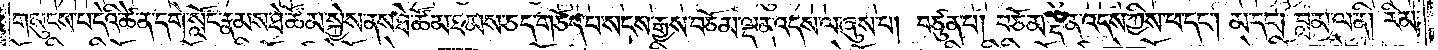གསུངས་པ་དེའི་ཚེ་ན་དགེ་སློང་རྣམས་ཐེ་ཚོམ་སྐྱེས་ནས་ཐེ་ཚོམ་ཐམས་ཅད་གཅོད་པ་སངས་རྒྱས་བཅོམ་ལྡན་འདས་ལ་ཞུས་པ། བཙུན་པ། བཅོམ་ལྡན་འདས་ཀྱིས་ཕ་དང༌། མ་དང༌། བླ་མ་ལ་ནི། རིམ་
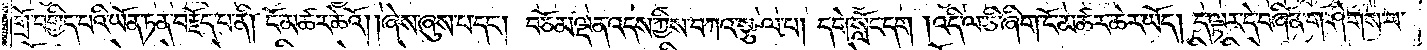གྲོ་བགྱིད་པའི་ཡོན་ཏན་བརྗོད་པ་ནི། ངོ་མཚར་ཆེའོ། །ཞེས་ཞུས་པ་དང༌། བཅོམ་ལྡན་འདས་ཀྱིས་བཀའ་སྩལ་པ། དགེ་སློང་དག །འདི་ལ་ཅི་ཞིག་ངོ་མཚར་ཆེར་ཡོད། ད་ལྟར་དེ་བཞིན་གཤེགས་པ་
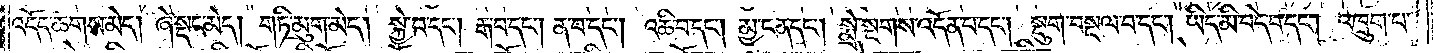འདོད་ཆགས་མེད། ཞེ་སྡང་མེད། གཏི་མུག་མེད། སྐྱེ་བ་དང༌། རྒ་བ་དང༌། ན་བ་དང༌། འཆི་བ་དང༌། མྱ་ངན་དང༌། སྨྲེ་སྔགས་འདོན་པ་དང༌། སྡུག་བསྔལ་བ་དང༌། ཡིད་མི་བདེ་བ་དང༌། འཁྲུག་པ་
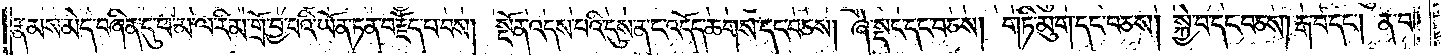རྣམས་མེད་བཞིན་དུ་ཕ་མ་ལ་རིམ་གྲོ་བྱ་བའི་ཡོན་ཏན་བརྗོད་པ་བས། སྔོན་འདས་པའི་དུས་ན་ང་འདོད་ཆགས་དང་བཅས། ཞེ་སྡང་དང་བཅས། གཏི་མུག་དང་བཅས། སྐྱེ་བ་དང་བཅས། རྒ་བ་དང༌། ན་བ་
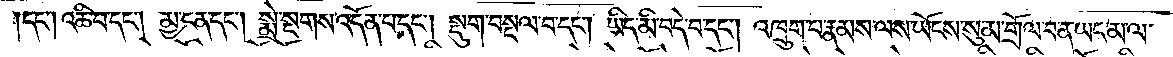དང༌། འཆི་བ་དང༌། མྱ་ངན་དང༌། སྨྲེ་སྔགས་འདོན་པ་དང༌། སྡུག་བསྔལ་བ་དང༌། ཡིད་མི་བདེ་བ་དང༌། འཁྲུག་པ་རྣམས་ལས་ཡོངས་སུ་མ་གྲོལ་བ་ན་ཡང་མ་ལ་
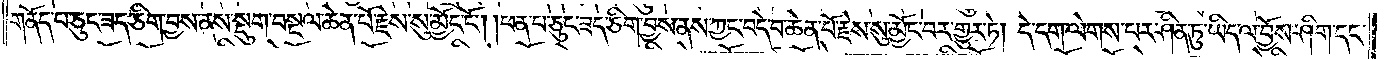གནོད་པ་ཅུང་ཟད་ཅིག་བྱས་ནས་སྡུག་བསྔལ་ཆེན་པོ་རྗེས་སུ་མྱོང་ངོ༌། །ཕན་པ་ཅུང་ཟད་ཅིག་བྱས་ནས་ཀྱང་བདེ་བ་ཆེན་པོ་རྗེས་སུ་མྱོང་བར་གྱུར་ཏེ། དེ་དག་ལེགས་པར་ཤིན་ཏུ་ཡིད་ལ་བྱོས་ཤིག་དང་
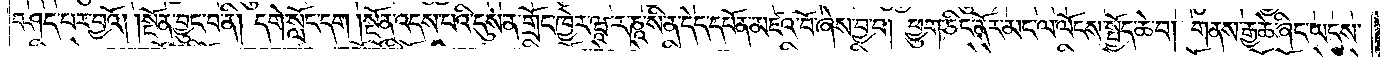བཤད་པར་བྱའོ། །སྔོན་བྱུང་བ་ནི། དགེ་སློང་དག །སྔོན་འདས་པའི་དུས་ན་གྲོང་ཁྱེར་ཝཱ་ར་ཎཱ་སི་ན་དེད་དཔོན་མཛའ་བོ་ཞེས་བྱ་བ། ཕྱུག་ཅིང་ནོར་མང་ལ་ལོངས་སྤྱོད་ཆེ་བ། གནས་རྒྱ་ཆེ་ཞིང་ཡངས་
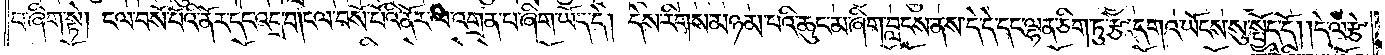པ་ཞིག་སྟེ། ངལ་བསོ་པོའི་ནོར་དང་འདྲ་བ། ངལ་བསོ་པོའི་ནོར་ལ་འགྲན་པ་ཞིག་ཡོད་དེ། དེས་རིགས་མཉམ་པའི་ཆུང་མ་ཞིག་བླངས་ནས་དེ་དེ་དང་ལྷན་ཅིག་ཏུ་རྩེ་དགའ་ཡོངས་སུ་སྤྱོད་དོ། །དེ་ལ་རྩེ་
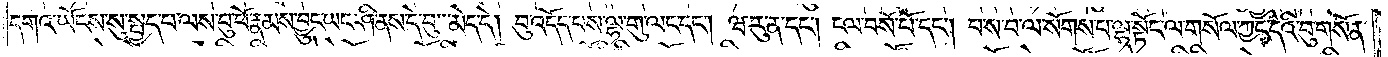དགའ་ཡོངས་སུ་སྤྱད་པ་ལས་བུ་ཕོ་རྣམས་བྱུང་ཡང་ཤི་ནས་དེ་བུ་མེད་དེ། བུ་འདོད་པས་ལྷ་གུ་ལང་དང༌། ཝ་རུ་ན་དང༌། ངལ་བསོ་པོ་དང༌། བ་ས་བ་ལ་སོགས་པ་ལྷ་སྟོང་ལ་གསོལ་ཀྱང་དེའི་བུ་གསོན་
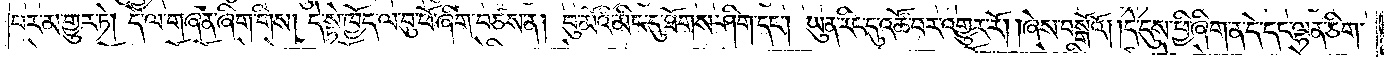པར་མ་གྱུར་ཏེ། དེ་ལ་གཞན་ཞིག་གིས། དེ་སྟེ་ཁྱོད་ལ་བུ་ཕོ་ཞིག་བཙས་ན། བུ་མོའི་མིང་དུ་ཐོགས་ཤིག་དང༌། ཡུན་རིང་དུ་འཚོ་བར་འགྱུར་རོ། །ཞེས་བསྒོའོ། །དེ་དུས་ཕྱི་ཞིག་ན་དེ་དང་ལྷན་ཅིག་
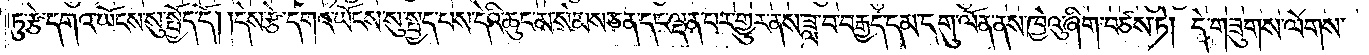ཏུ་རྩེ་དགའ་ཡོངས་སུ་སྤྱོད་དོ། །དེས་རྩེ་དགའ་ཡོངས་སུ་སྤྱད་པས་དེའི་ཆུང་མ་སེམས་ཅན་དང་ལྡན་པར་གྱུར་ནས་ཟླ་བ་བརྒྱད་དམ་དགུ་ལོན་ནས་ཁྱེའུ་ཞིག་བཙས་ཏེ། དེ་གཟུགས་ལེགས་
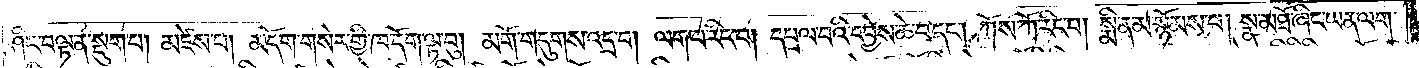ཤིང་བལྟ་ན་སྡུག་པ། མཛེས་པ། མདོག་གསེར་གྱི་ཁ་དོག་ལྟ་བུ། མགོ་གདུགས་འདྲ་བ། ལག་པ་རིང་བ། དཔྲལ་བའི་དབྱེས་ཆེ་བ་དང༌། ཀོས་ཀོ་རིང་བ། སྨིན་མ་སྙོམས་པ། སྣ་མཐོ་ཞིང་ཡན་ལག་
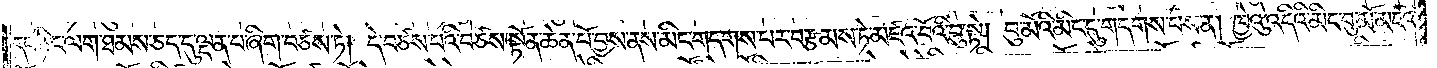དང་ཉིང་ལག་ཐམས་ཅད་དུ་ལྡན་པ་ཞིག་བཙས་ཏེ། དེ་བཙས་པའི་བཙས་སྟོན་ཆེན་པོ་བྱས་ནས་མིང་གདགས་པར་བརྩམས་ཏེ་མཛའ་བོའི་བུ་སྟེ། བུ་མོའི་མིང་དུ་གདགས་པས་ན། ཁྱེའུ་འདིའི་མིང་བུ་མོ་མཛའ་
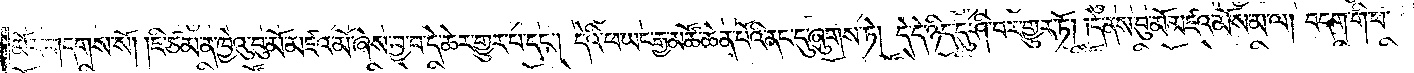མོར་གདགས་སོ། །ཇི་ཙམ་ན་ཁྱེའུ་བུ་མོ་མཛའ་མོ་ཞེས་བྱ་བ་དེ་ཆེར་གྱུར་པ་དང༌། དེའི་ཕ་ཡང་རྒྱ་མཚོ་ཆེན་པོའི་ནང་དུ་ཞུགས་ཏེ། དེ་དེ་ཉིད་དུ་ཤི་བར་གྱུར་ཏོ། །དེ་ནས་བུ་མོ་མཛའ་མོས་མ་ལ། བདག་གི་ཕ་
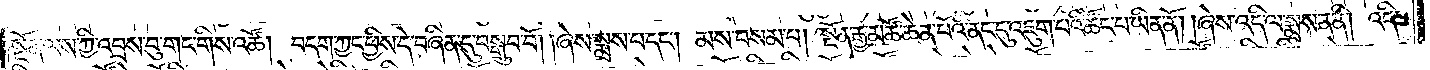སྔོན་ལས་ཀྱི་འབྲས་བུ་གང་གིས་འཚོ། བདག་ཀྱང་ཕྱིས་དེ་བཞིན་དུ་བསྒྲུབ་བོ། །ཞེས་སྨྲས་པ་དང༌། མས་བསམ་པ། སྔོན་རྒྱ་མཚོ་ཆེན་པོའི་ནང་དུ་འཇུག་པའི་ཚོང་པ་ཡིན་ནོ། །ཞེས་འདི་ལ་སྨྲས་ན་ནི། །འདི་
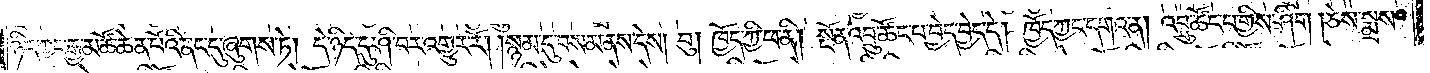ཉིད་ཀྱང་རྒྱ་མཚོ་ཆེན་པོའི་ནང་དུ་ཞུགས་ཏེ། དེ་ཉིད་དུ་ཤི་བར་འགྱུར་རོ། །སྙམ་དུ་བསམ་ནས་དེས། བུ། ཁྱོད་ཀྱི་ཕ་ནི། སྔོན་འབྲུ་ཚོང་པ་བྱེད་བྱེད་དེ། ཁྱོད་ཀྱང་དགའ་ན། འབྲུ་ཚོང་བ་གྱིས་ཤིག །ཅེས་སྨྲས་
